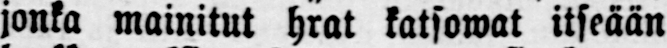jonka mainitut hrat katsowat itseään
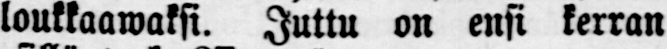loukkaawaksi. Juttu on ensi kerran
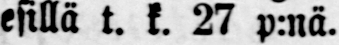esillä t. k. 27 p:nä.
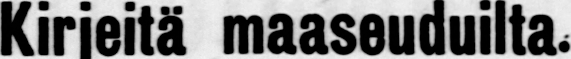Kirjeitä maaseuduilta.
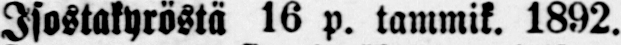Isostakyröstä 16 p. tammik. 1892.
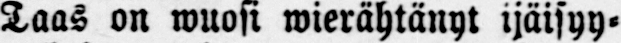Taas on wuosi wierähtänyt ijäisyy-
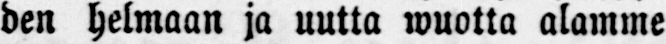den helmaan ja uutta wuotta alamme
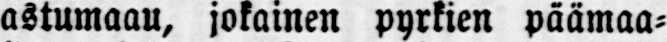astumaau, jokainen pyrkien päämaa-
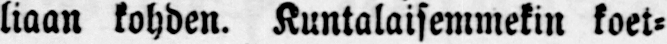liaan kohden. Kuntalaisemmekin koet-
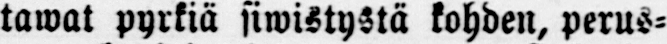tawat pyrkiä siwistystä kohden, perus-
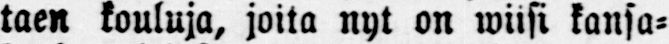taen kouluja, joita nyt on wiisi kansa-
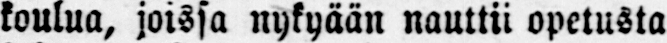koulua, joissa nykyään nauttii opetusta
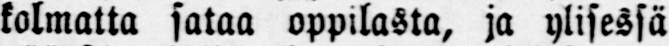kolmatta sataa oppilasta, ja ylisessä
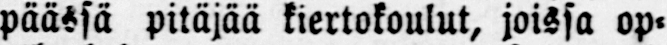päässä pitäjää kiertokoulut, joissa op-
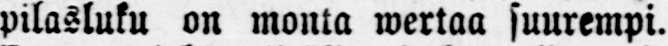pilasluku on monta wertaa suurempi.
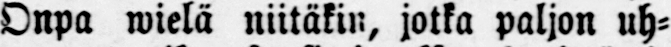Onpa wielä niitäkin, jotka paljon uh-
